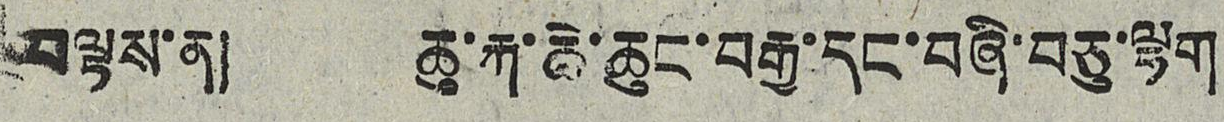བལྟས་ན། ཆུ་རྐ་ཆེ་ཆུང་བརྒྱ་དང་བཞི་བཅུ་ལྷག
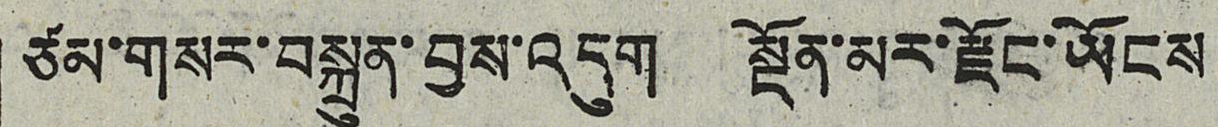ཙམ་གསར་བསྐྲུན་བྱས་འདུག སྔོན་མར་རྫོང་ཡོངས
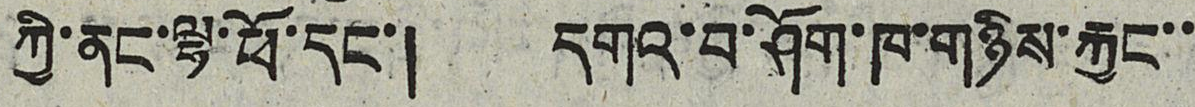ཀྱི་ནང་ལྷ་ཕོ་དང་། དགའ་བ་ཤོག་ཁ་གཉིས་རྐྱང་་
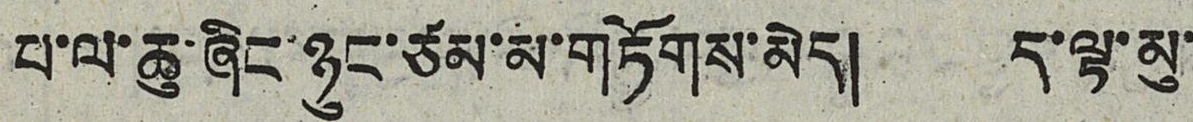པ་ལ་ཆུ་ཞིང་ཉུང་ཙམ་མ་གཏོགས་མེད། ད་ལྟ་མུ་
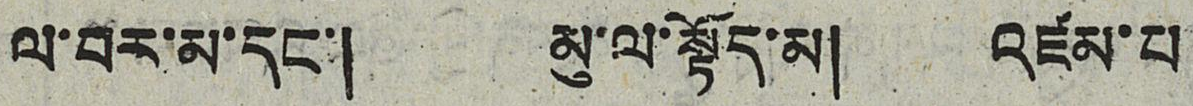ལ་བར་མ་དང་། མུ་ལ་སྟོད་མ། འཛམ་པ
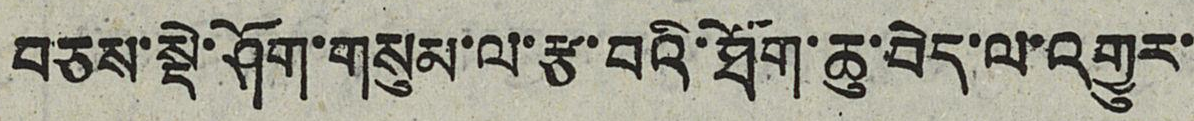བཅས་སྡེ་ཤོག་གསུམ་ལ་རྩ་བའི་ཐོག་ཆུ་བེད་ལ་འགྱུར་
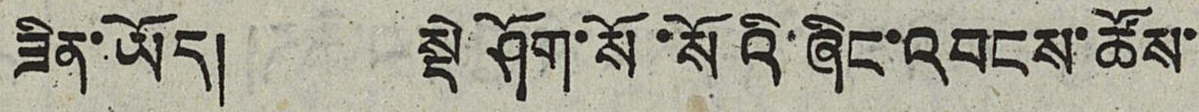ཟིན་ཡོད། སྡེ་ཤོག་སོ་སོའི་ཞིང་འབངས་ཚོས་
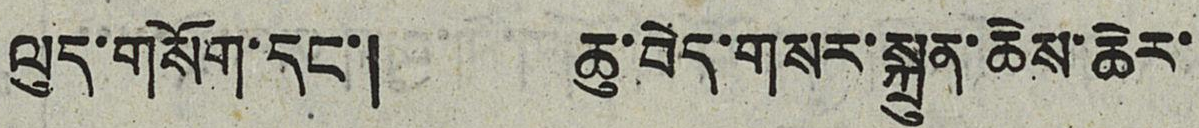ལུད་གསོག་དང་། ཆུ་བེད་གསར་སྐྲུན་ཆེས་ཆེར་
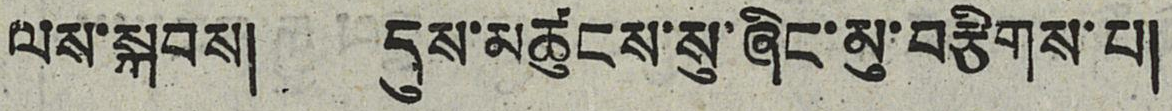ལས་སྐབས། དུས་མཚུངས་སུ་ཞིང་མུ་བརྩིགས་པ།
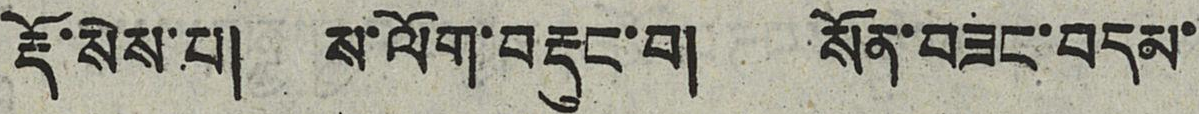རྡོ་སེས་པ། ས་ལོག་བརྡུང་བ། སོན་བཟང་བདམ་
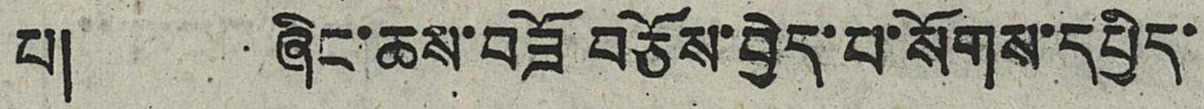པ། ཞིང་ཆས་བཟོ བཅོས་བྱེད་པ་སོགས་དཔྱིད་
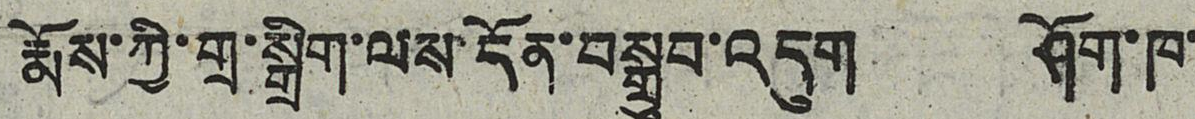རྨོས་ཀྱི་གྲ་སྒྲིག་ལས་དོན་བསྒྲུབ་འདུག ཤོག་ཁ་
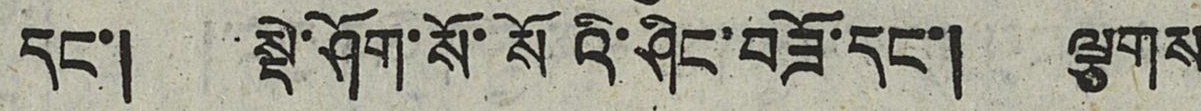དང་། སྡེ་ཤོག་སོ་སོའི་ཤིང་བཟོ་དང་། ལྕགས
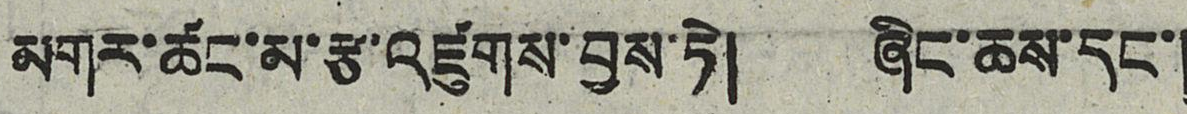མགར་ཚང་མ་རྩ་འཛུགས་བྱས་ཏེ། ཞིང་ཆས་དང་།
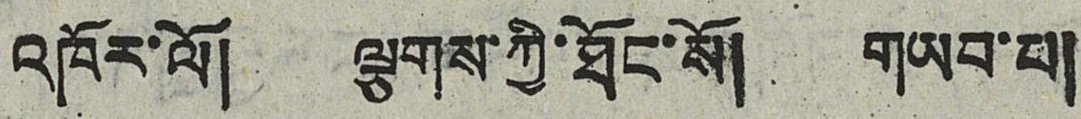འཁོར་ལོ། ལྕགས་ཀྱི་ཐོང་སོ། གཡབ་པ།
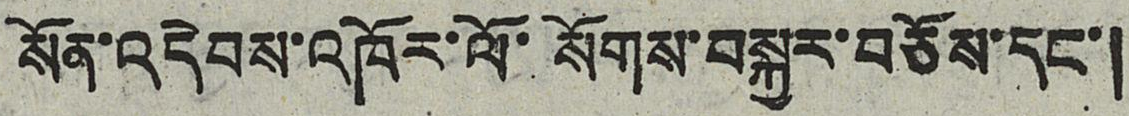སོན་འདེབས་འཁོར་ལོ་སོགས་བསྐྱར་བཅོས་དང་།
